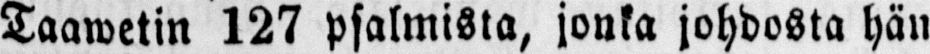Taawetin 127 psalmista, jonka johdosta hän
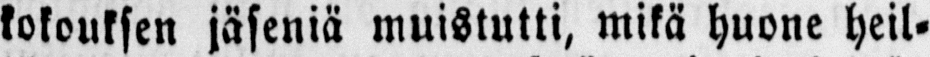kokouksen jäseniä muistutti, mikä huone heil-
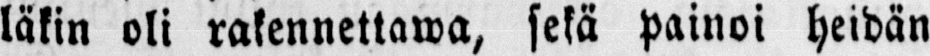läkin oli rakennettawa, sekä painoi heidän
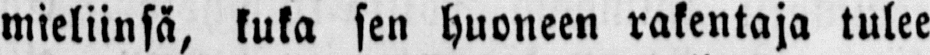mieliinsä, kuka sen huoneen rakentaja tulee
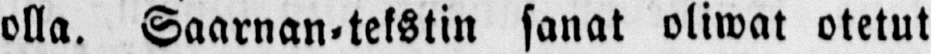olla. Saarnan-tekstin sanat oliwat otetut
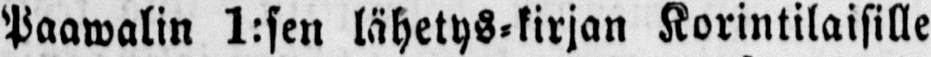Paawalin 1:sen lähetys-kirjan Korintilaisille
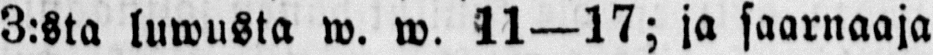3:sta luwusta w. w. 11—17; ja saarnaaja
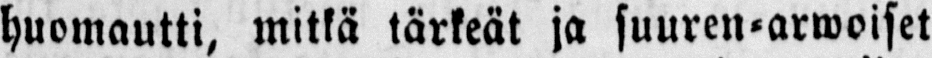huomautti, mitkä tärkeät ja suuren-arwoiset
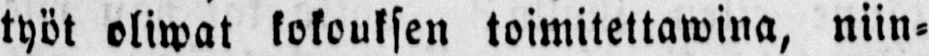työt oliwat kokouksen toimitettawina, niin-
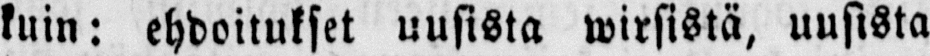kuin: ehdoitukset uusista wirsistä, uusista
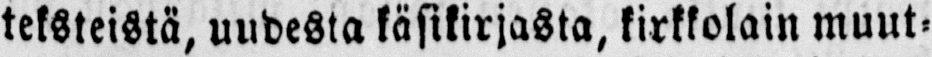teksteistä, uudesta käsikirjasta, kirkkolain muut-
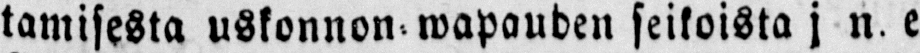tamisesta uskonnon wapauden seikoista j n. e
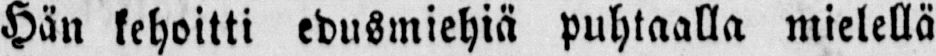Hän kehoitti edusmiehiä puhtaalla mielellä
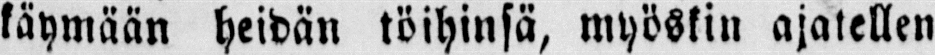käymään heidän töihinsä, myöskin ajatellen
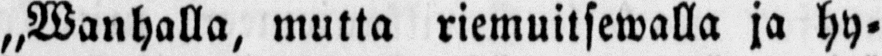„Wanhalla, mutta riemuitsewalla ja hy-
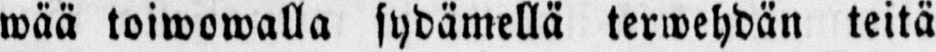wää toiwowalla sydämellä terwehdän teitä
